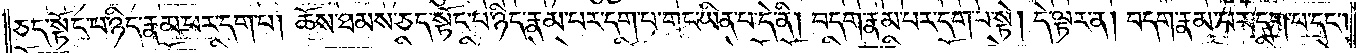ཅད་སྟོང་པ་ཉིད་རྣམ་པར་དག་པ། ཆོས་ཐམས་ཅད་སྟོང་པ་ཉིད་རྣམ་པར་དག་པ་གང་ཡིན་པ་དེ་ནི། བདག་རྣམ་པར་དག་པ་སྟེ། དེ་ལྟར་ན། བདག་རྣམ་པར་དག་པ་དང༌།
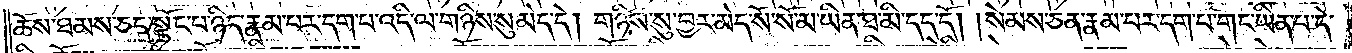ཆོས་ཐམས་ཅད་སྟོང་པ་ཉིད་རྣམ་པར་དག་པ་འདི་ལ་གཉིས་སུ་མེད་དེ། གཉིས་སུ་བྱར་མེད་སོ་སོ་མ་ཡིན་ཐ་མི་དད་དོ། །སེམས་ཅན་རྣམ་པར་དག་པ་གང་ཡིན་པ་དེ་
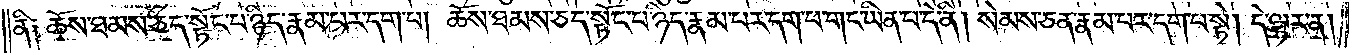ནི། ཆོས་ཐམས་ཅད་སྟོང་པ་ཉིད་རྣམ་པར་དག་པ། ཆོས་ཐམས་ཅད་སྟོང་པ་ཉིད་རྣམ་པར་དག་པ་གང་ཡིན་པ་དེ་ནི། སེམས་ཅན་རྣམ་པར་དག་པ་སྟེ། དེ་ལྟར་ན།
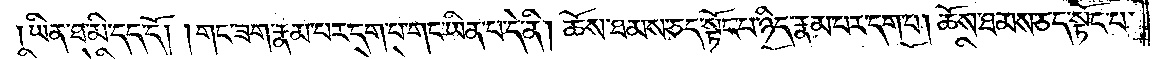ཡིན་ཐ་མི་དད་དོ། །གང་ཟག་རྣམ་པར་དག་པ་གང་ཡིན་པ་དེ་ནི། ཆོས་ཐམས་ཅད་སྟོང་པ་ཉིད་རྣམ་པར་དག་པ། ཆོས་ཐམས་ཅད་སྟོང་པ་
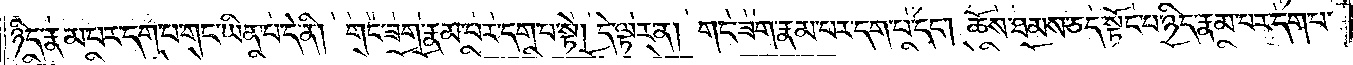ཉིད་རྣམ་པར་དག་པ་གང་ཡིན་པ་དེ་ནི། གང་ཟག་རྣམ་པར་དག་པ་སྟེ། དེ་ལྟར་ན། གང་ཟག་རྣམ་པར་དག་པ་དང༌། ཆོས་ཐམས་ཅད་སྟོང་པ་ཉིད་རྣམ་པར་དག་པ་
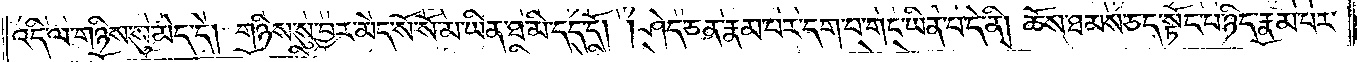འདི་ལ་གཉིས་སུ་མེད་དེ། གཉིས་སུ་བྱར་མེད་སོ་སོ་མ་ཡིན་ཐ་མི་དད་དོ། །ཤེད་ཅན་རྣམ་པར་དག་པ་གང་ཡིན་པ་དེ་ནི། ཆོས་ཐམས་ཅད་སྟོང་པ་ཉིད་རྣམ་པར་
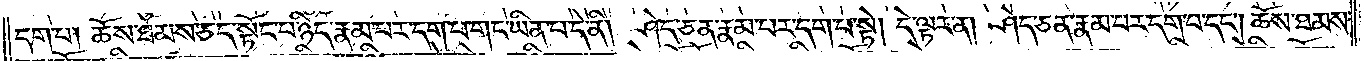དག་པ། ཆོས་ཐམས་ཅད་སྟོང་པ་ཉིད་རྣམ་པར་དག་པ་གང་ཡིན་པ་དེ་ནི། ཤེད་ཅན་རྣམ་པར་དག་པ་སྟེ། དེ་ལྟར་ན། ཤེད་ཅན་རྣམ་པར་དག་པ་དང༌། ཆོས་ཐམས་
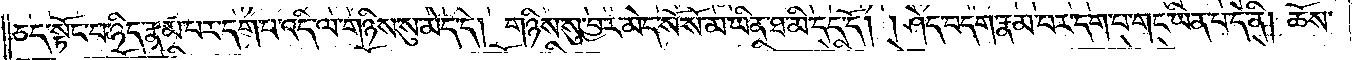ཅད་སྟོང་པ་ཉིད་རྣམ་པར་དག་པ་འདི་ལ་གཉིས་སུ་མེད་དེ། གཉིས་སུ་བྱར་མེད་སོ་སོ་མ་ཡིན་ཐ་མི་དད་དོ། །ཤེད་བདག་རྣམ་པར་དག་པ་གང་ཡིན་པ་དེ་ནི། ཆོས་
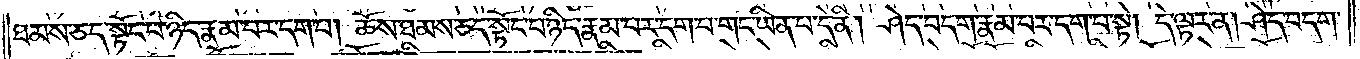ཐམས་ཅད་སྟོང་པ་ཉིད་རྣམ་པར་དག་པ། ཆོས་ཐམས་ཅད་སྟོང་པ་ཉིད་རྣམ་པར་དག་པ་གང་ཡིན་པ་དེ་ནི། ཤེད་བདག་རྣམ་པར་དག་པ་སྟེ། དེ་ལྟར་ན། ཤེད་བདག་
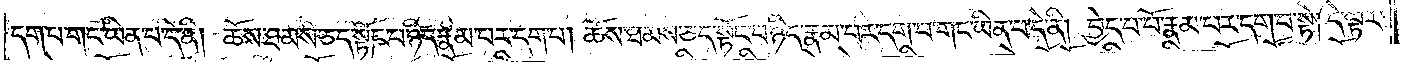དག་པ་གང་ཡིན་པ་དེ་ནི། ཆོས་ཐམས་ཅད་སྟོང་པ་ཉིད་རྣམ་པར་དག་པ། ཆོས་ཐམས་ཅད་སྟོང་པ་ཉིད་རྣམ་པར་དག་པ་གང་ཡིན་པ་དེ་ནི། བྱེད་པ་པོ་རྣམ་པར་དག་པ་སྟེ། དེ་ལྟར་
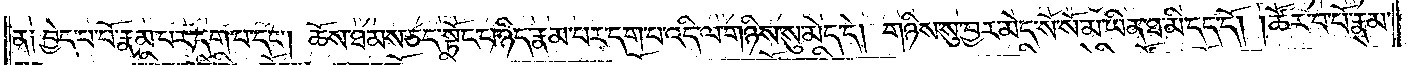ན། བྱེད་པ་པོ་རྣམ་པར་དག་པ་དང༌། ཆོས་ཐམས་ཅད་སྟོང་པ་ཉིད་རྣམ་པར་དག་པ་འདི་ལ་གཉིས་སུ་མེད་དེ། གཉིས་སུ་བྱར་མེད་སོ་སོ་མ་ཡིན་ཐ་མི་དད་དོ། །ཚོར་བ་པོ་རྣམ་
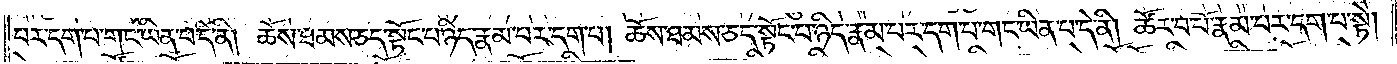པར་དག་པ་གང་ཡིན་པ་དེ་ནི། ཆོས་ཐམས་ཅད་སྟོང་པ་ཉིད་རྣམ་པར་དག་པ། ཆོས་ཐམས་ཅད་སྟོང་པ་ཉིད་རྣམ་པར་དག་པ་གང་ཡིན་པ་དེ་ནི། ཚོར་བ་པོ་རྣམ་པར་དག་པ་སྟེ།
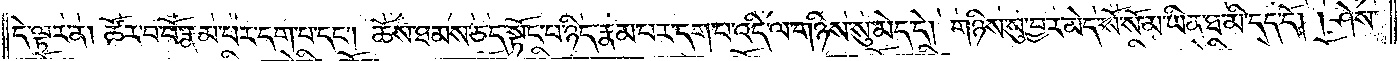དེ་ལྟར་ན། ཚོར་བ་པོ་རྣམ་པར་དག་པ་དང༌། ཆོས་ཐམས་ཅད་སྟོང་པ་ཉིད་རྣམ་པར་དག་པ་འདི་ལ་གཉིས་སུ་མེད་དེ། གཉིས་སུ་བྱར་མེད་སོ་སོ་མ་ཡིན་ཐ་མི་དད་དོ། །ཤེས་
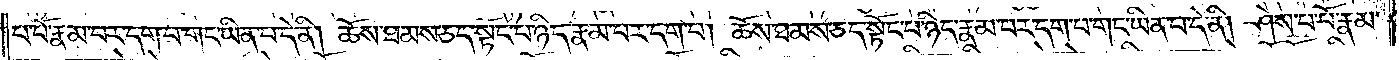པ་པོ་རྣམ་པར་དག་པ་གང་ཡིན་པ་དེ་ནི། ཆོས་ཐམས་ཅད་སྟོང་པ་ཉིད་རྣམ་པར་དག་པ། ཆོས་ཐམས་ཅད་སྟོང་པ་ཉིད་རྣམ་པར་དག་པ་གང་ཡིན་པ་དེ་ནི། ཤེས་པ་པོ་རྣམ་
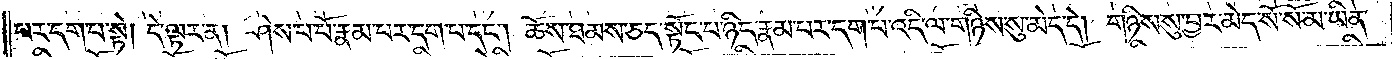པར་དག་པ་སྟེ། དེ་ལྟར་ན། ཤེས་པ་པོ་རྣམ་པར་དག་པ་དང༌། ཆོས་ཐམས་ཅད་སྟོང་པ་ཉིད་རྣམ་པར་དག་པ་འདི་ལ་གཉིས་སུ་མེད་དེ། གཉིས་སུ་བྱར་མེད་སོ་སོ་མ་ཡིན་
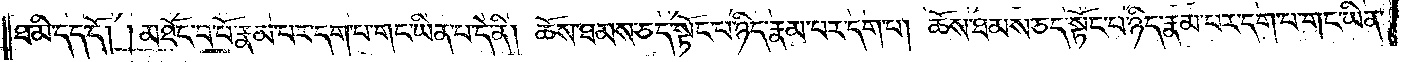ཐ་མི་དད་དོ། །མཐོང་བ་པོ་རྣམ་པར་དག་པ་གང་ཡིན་པ་དེ་ནི། ཆོས་ཐམས་ཅད་སྟོང་པ་ཉིད་རྣམ་པར་དག་པ། ཆོས་ཐམས་ཅད་སྟོང་པ་ཉིད་རྣམ་པར་དག་པ་གང་ཡིན་
